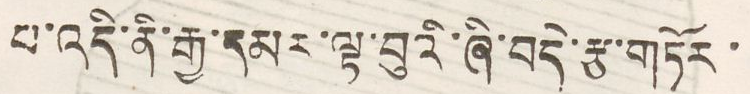པ་འདི་ནི་རྒྱ་དམར་ལྟ་བུའི་ཞི་བདེ་རྩ་གཏོར་
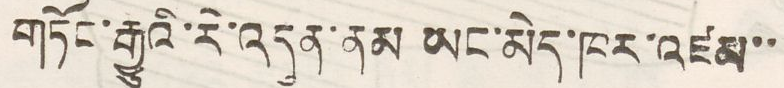གཏོང་རྒྱུའི་རེ་འདུན་ནམ ཡང་མེད་ཁར་འཛམ་་
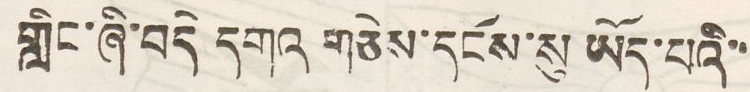གླིང་ཞི་བདེ དགའ གཅེས་དངོས་སུ ཡོད་པའི་་
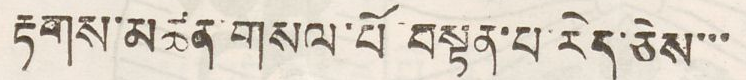རྟགས་མཚན གསལ་པོ བསྟན་པ་རེད་ཅེས་་་
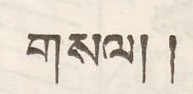གསལ། །
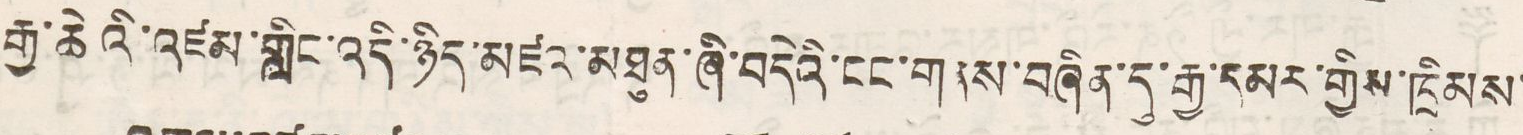རྒྱ་ཆེའི་འཛམ་གླིང་འདི་ཉིད་མཛའ་མཐུན་ཞི་བདེའི་ངང་གནས་བཞིན་དུ་རྒྱ་དམར་གྱིས་ཁྲིམས་
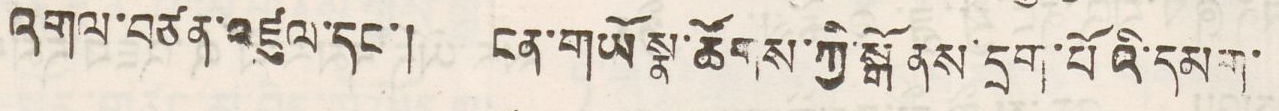འགལ་བཙན་འཛུལ་དང་། ངན་གཡོ སྣ་ཚོགས་ཀྱི་སྒོ ནས་དྲག་པོའི་དམག་
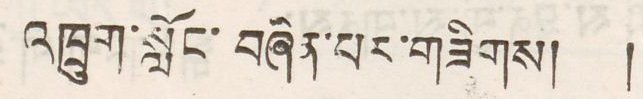འཁྲུག་སློང་བཞིན་པར་གཟིགས། །
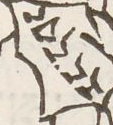རང་དབང་
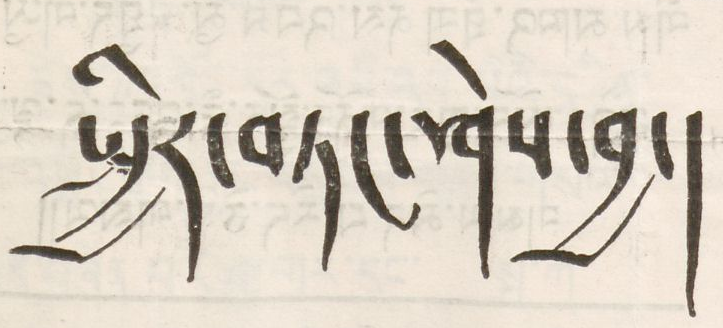སྤྱིར་བཏང་ཤེས་བྱ།
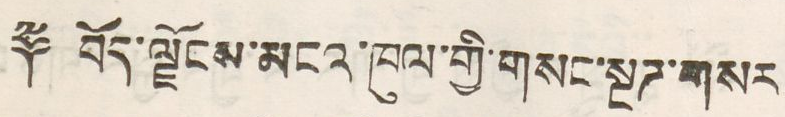༈ བོད་ལྗོངས་མངའ་ཁུལ་གྱི་གསང་སྔཌ་གསར
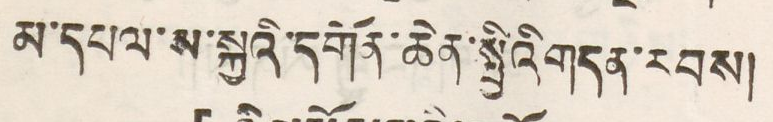མ་དཔལ་ས་སྐྱའི་དགོན་ཆེན་སྤྱིའི་གདན་རབས།
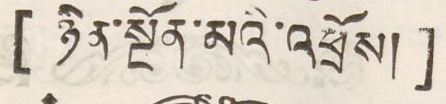[ ཉིན་སྔོན་མའི་འཕྲོས། ]
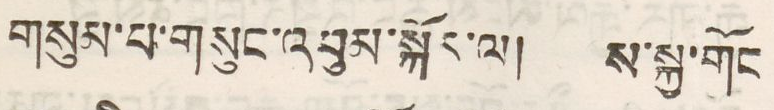གསུམ་པ་གསུང་འབུམ་སྐོར་ལ། ས་སྐྱ་གོང
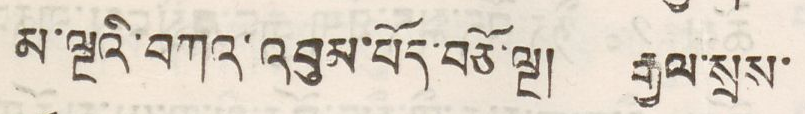མ་ལྔའི་བཀའ་འབུམ་པོད་བཅི་ལྔ། རྒྱལ་སྲས་
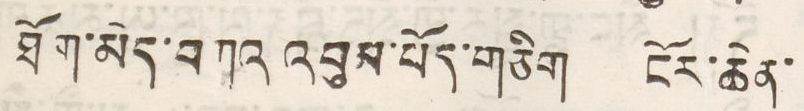ཐོག་མེད་བཀའ འབུམ་པོད་གཅིག ངོར་ཆེན་
